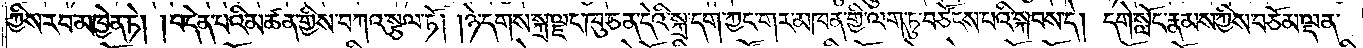ཀྱིས་རབ་མཁྱེན་ཏེ། །བདེན་པའི་མཚན་གྱིས་བཀའ་སྩལ་ཏོ། །ཉེ་དགས་སྐྲ་ལྗང་ཁུ་ཅན་དེའི་སྐྲ་དག་ཀྱང་གར་མཁན་གྱི་ལག་ཏུ་བཙོངས་པའི་སྐབས་དེ། དགེ་སློང་རྣམས་ཀྱིས་བཅོམ་ལྡན་
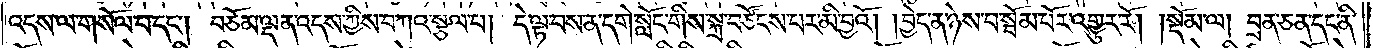འདས་ལ་གསོལ་པ་དང༌། བཅོམ་ལྡན་འདས་ཀྱིས་བཀའ་སྩལ་པ། དེ་ལྟ་བས་ན་དགེ་སློང་གིས་སྐྲ་བཙོངས་པར་མི་བྱའོ། །བྱེད་ན་ཉེས་པ་སྦོམ་བོར་འགྱུར་རོ།    །སྡོམ་ལ། བྲན་ཅན་དང་ནི་
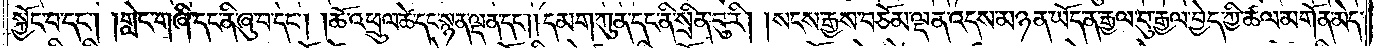སྐྱོང་བ་དང༌། །གླེང་གཞི་དང་ནི་ཞུ་བ་དང༌། །ཆོ་འཕྲུལ་ཚེ་དང་སྙན་ལྡན་དང༌། །དམག་ཀུན་དང་ནི་སྲིན་བུ་རི། །སངས་རྒྱས་བཅོམ་ལྡན་འདས་མཉན་ཡོད་ན་རྒྱལ་བུ་རྒྱལ་བྱེད་ཀྱི་ཚལ་མགོན་མེད་
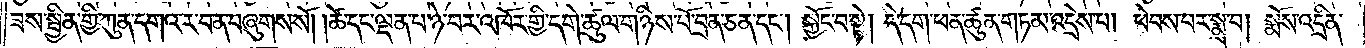ཟས་སྦྱིན་གྱི་ཀུན་དགའ་ར་བ་ན་བཞུགས་སོ། །ཚེ་དང་ལྡན་པ་ཉེ་བར་འཁོར་གྱི་དགེ་ཚུལ་གཉིས་པོ་བྲན་ཅན་དང༌། སྐྱོང་བ་སྟེ། དེ་དག་ཕན་ཚུན་གཏམ་འདྲེས་པ། ཕེབས་པར་སྨྲ་བ། སྨོས་འདྲིན་
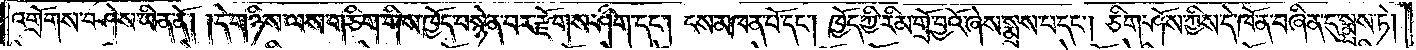འགྲོགས་བཤེས་ཡིན་ནོ། །དེ་གཉིས་ལས་གཅིག་གིས་ཁྱོད་བསྙེན་པར་རྫོགས་ཤིག་དང༌། ངས་མཁན་པོ་དང༌། ཁྱོད་ཀྱི་རིམ་གྲོ་བྱའོ་ཞེས་སྨྲས་པ་དང༌། ཅིག་ཤོས་ཀྱིས་དེ་ཁོན་བཞིན་དུ་སྨྲས་ཏེ།
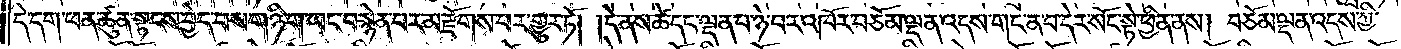དེ་དག་ཕན་ཚུན་སྟངས་བྱེད་པས་གཉི་ག་ཡང་བསྙེན་པར་མ་རྫོགས་པར་གྱུར་ཏེ། །དེ་ནས་ཚེ་དང་ལྡན་པ་ཉེ་བར་འཁོར་བཅོམ་ལྡན་འདས་གང་ན་བ་དེར་སོང་སྟེ་ཕྱིན་ནས། བཅོམ་ལྡན་འདས་ཀྱི་
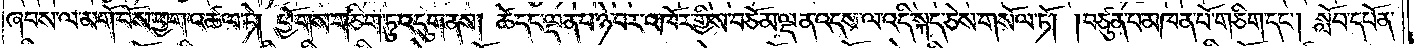ཞབས་ལ་མགོ་བོས་ཕྱག་འཚལ་ཏེ། ཕྱོགས་གཅིག་ཏུ་འདུག་ནས། ཚེ་དང་ལྡན་པ་ཉེ་བར་འཁོར་གྱིས་བཅོམ་ལྡན་འདས་ལ་འདི་སྐད་ཅེས་གསོལ་ཏོ། །བཙུན་པ་མཁན་པོ་གཅིག་དང༌། སློབ་དཔོན་
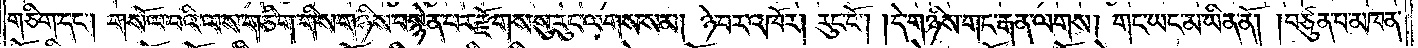གཅིག་དང༌། གསོལ་བའི་ལས་གཅིག་གིས་གཉིས་བསྙེན་པར་རྫོགས་སུ་རུང་ལགས་སམ། ཉེ་བར་འཁོར། རུང་ངོ༌། །དེ་གཉིས་གང་རྒན་ལགས། གང་ཡང་མ་ཡིན་ནོ། །བཙུན་པ་མཁན་
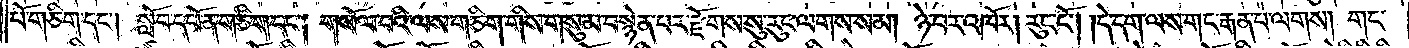པོ་གཅིག་དང༌། སློབ་དཔོན་གཅིག་དང༌། གསོལ་བའི་ལས་གཅིག་གིས་གསུམ་བསྙེན་པར་རྫོགས་སུ་རུང་ལགས་སམ། ཉེ་བར་འཁོར། རུང་ངོ༌། །དེ་དག་ལས་གང་རྒན་པ་ལགས། གང་
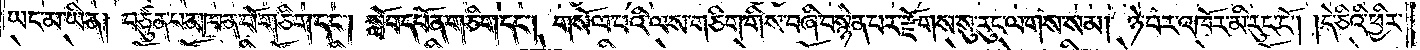ཡང་མ་ཡིན། བཙུན་པ་མཁན་པོ་གཅིག་དང༌། སློབ་དཔོན་གཅིག་དང༌། གསོལ་པའི་ལས་གཅིག་གིས་བཞི་བསྙེན་པར་རྫོགས་སུ་རུང་ལགས་སམ། ཉེ་བར་འཁོར་མི་རུང་ངོ༌། །དེ་ཅིའི་ཕྱིར་
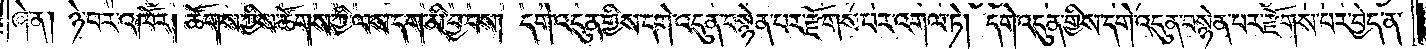ཞེ་ན༑ ཉེ་བར་འཁོར། ཚོགས་ཀྱིས་ཚོགས་ཀྱི་ལས་དག་མི་བྱ་བས། དགེ་འདུན་གྱིས་དགེ་འདུན་བསྙེན་པར་རྫོགས་པར་འགལ་ཏེ། དགེ་འདུན་གྱིས་དགེ་འདུན་བསྙེན་པར་རྫོགས་པར་བྱེད་ན་
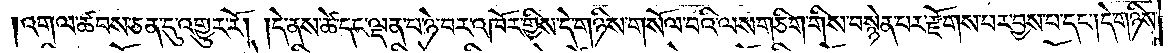འགལ་ཚབས་ཅན་དུ་འགྱུར་རོ། །དེ་ནས་ཚེ་དང་ལྡན་པ་ཉེ་བར་འཁོར་གྱིས་དེ་གཉིས་གསོལ་བའི་ལས་གཅིག་གིས་བསྙེན་པར་རྫོགས་པར་བྱས་པ་དང༌། དེ་གཉིས་
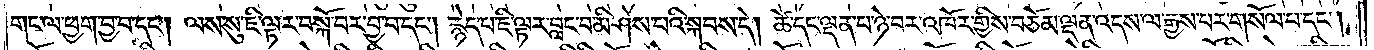གང་ལ་ཕྱག་བྱ་བ་དང༌། ལས་སུ་ཇི་ལྟར་བསྐོ་བར་བྱ་བ་དང༌། རྙེད་པ་ཇི་ལྟར་བླང་པ་མི་ཤེས་པའི་སྐབས་དེ། ཚེ་དང་ལྡན་པ་ཉེ་བར་འཁོར་གྱིས་བཅོམ་ལྡན་འདས་ལ་རྒྱས་པར་གསོལ་པ་དང༌།
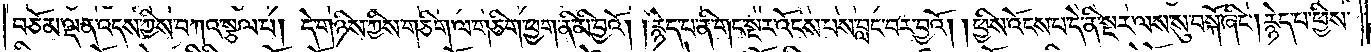བཅོམ་ལྡན་འདས་ཀྱིས་བཀའ་སྩལ་པ། དེ་གཉིས་ཀྱིས་གཅིག་ལ་གཅིག་ཕྱག་ནི་མི་བྱའོ། །རྙེད་པ་ནི་གང་སྔར་འོངས་པས་བླང་བར་བྱའོ། །ཕྱིས་འོངས་པ་དེ་ནི་སྔར་ལས་སུ་བསྐོ་ཞིང༌། རྙེད་པ་ཕྱིས་
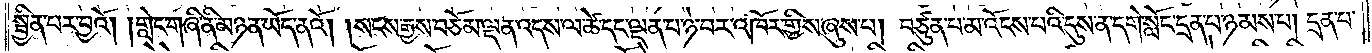སྦྱིན་པར་བྱའོ། །གླེང་གཞི་ནི་མཉན་ཡོད་ནའོ། །སངས་རྒྱས་བཅོམ་ལྡན་འདས་ལ་ཚེ་དང་ལྡན་པ་ཉེ་བར་འཁོར་གྱིས་ཞུས་པ། བཙུན་པ་མ་འོངས་པའི་དུས་ན་དགེ་སློང་དྲན་པ་ཉམས་པ། དྲན་པ་
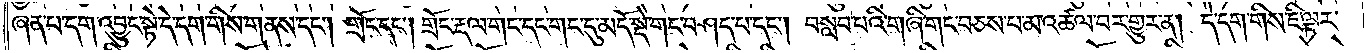ཞན་པ་དག་འབྱུང་སྟེ་དེ་དག་གིས་གནས་དང༌། གྲོང་དང༌། གྲོང་རྡལ་གང་དང་གང་དུ་མདོ་སྡེ་གང་བཤད་པ་དང༌། བསླབ་པའི་གཞི་གང་བཅས་པ་མ་འཚལ་བར་གྱུར་ན། དེ་དག་གིས་ཇི་ལྟར་
